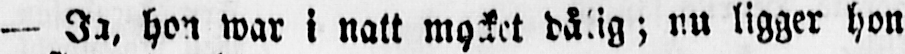— Ja, hon war i natt mycket dålig; nu ligger hon
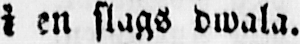i en slags dwala.
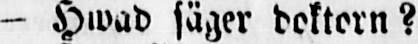- Hwad säger doktorn?
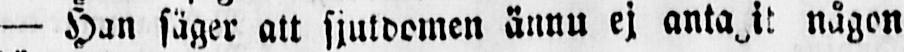— Han säger att sjukdomen ännu ej antagit någon
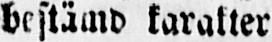bestämd karakter
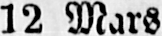12 Mars
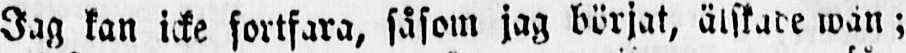Jag kan icke fortfara, såsom jag börjat, älskade wän;
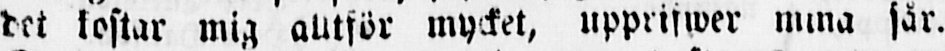det kostar mig alltför mycket, upprifwer mina sår.
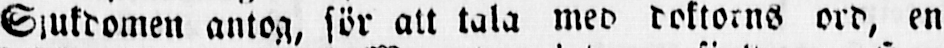Sjukdomen antog, för att tala med doktorns ord, en
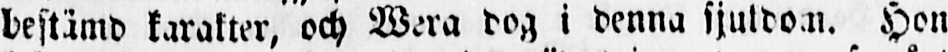bestämd karakter, och Wera dog i denna sjukdom. Hon
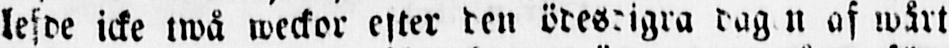lefde icke twå weckor efter den ödesdigra dag n af wårt
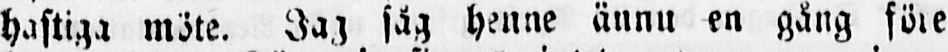hastiga möte. Jag såg henne ännu en gång före
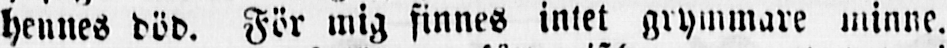hennes död. För mig finnes intet grymmare minne.
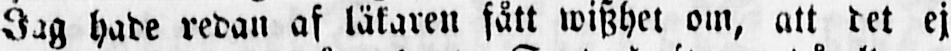Jag hade redan af läkaren fått wiszhet om, att det ej
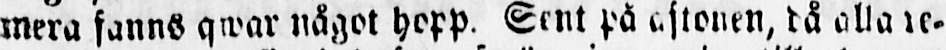mera fanns qwar något hopp, Sent på aftonen, då alla re-
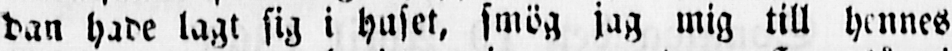dan hade lagt sig i huset, smög jag mig till hennes
